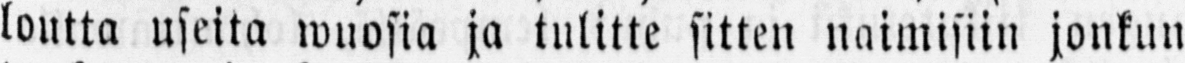loutta useita wuosia ja tulitte sitten naimisiin jonkun
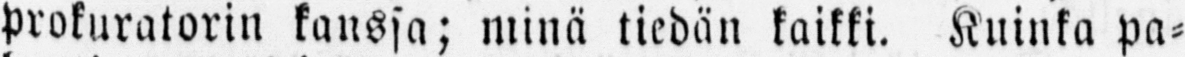prokuratorin kanssa; minä tiedän kaikki. Kuinka pa-
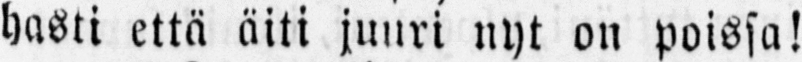hasti että äiti juuri nyt on poissa!
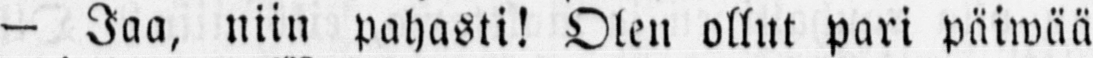— Jaa, niin pahasti! Olen ollut pari päiwää
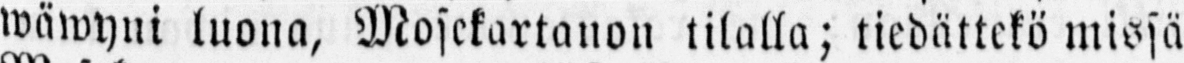wäwyni luona, Mosekartanon tilalla; tiedättekö missä
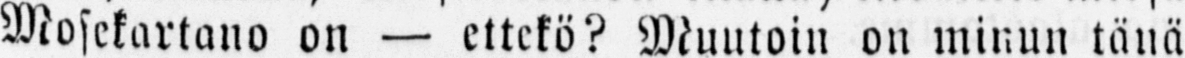Mosekartano on — ettekö? Muutoin on minun tänä
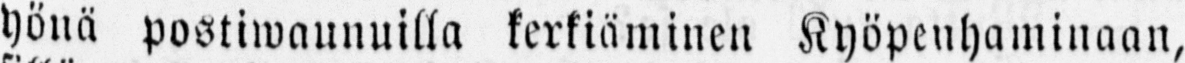yönä postiwaunuilla kerkiäminen Kyöpenhaminaan,
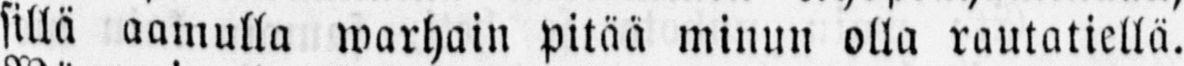sillä aamulla warhain pitää minun olla rantatiellä.
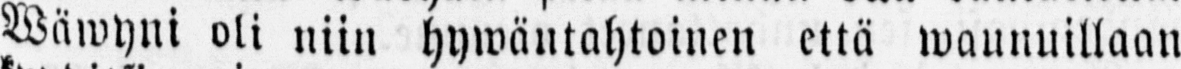Wäwyni oli niin hywäntahtoinen että waunuillaan
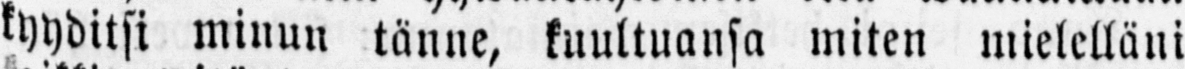kyyditsi minun tänne, kuultuansa miten mielelläni
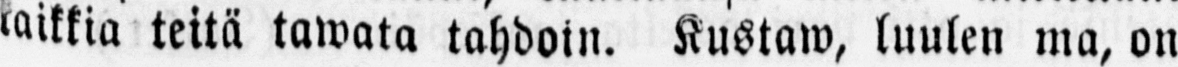kaikkia teitä tawata tahdoin. Kustaw, luulen ma, on
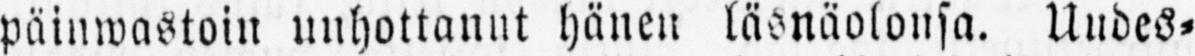päinwastoin unhottanut hänen läsnäolonsa. Uudes-
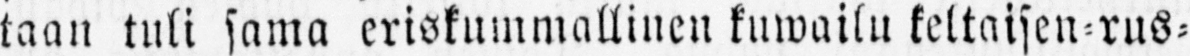taan tuli sama eriskummallinen kuwailu keltaisen-rus-
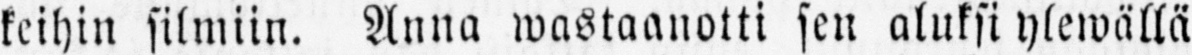keihin silmiin. Anna wastaanotti sen aluksi ylewällä
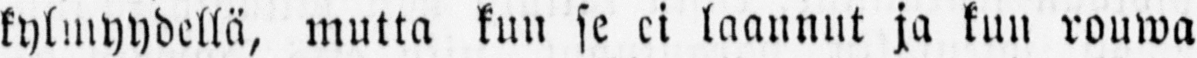kylmyydellä, mutta kun se ei laannut ja kun rouwa
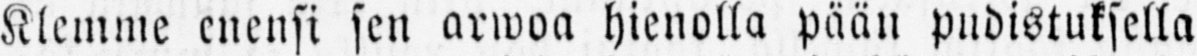Klemme enensi sen arwoa hienolla pään pudistuksella
